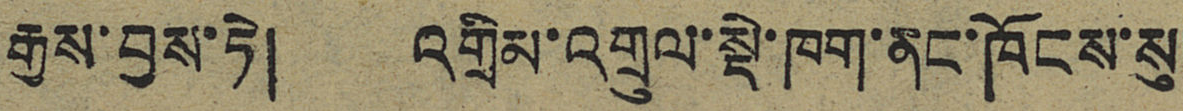རྒྱས་བྱས་ཏེ། འགྲིམ་འགྲུལ་སྡེ་ཁག་ནང་ཁོངས་སུ།
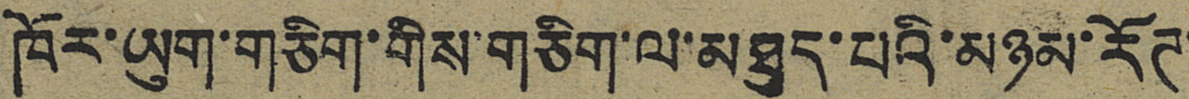ཁོར་ཡུག་གཅིག་གིས་གཅིག་ལ་མཐུད་པའི་མཉམ་རོཊ་
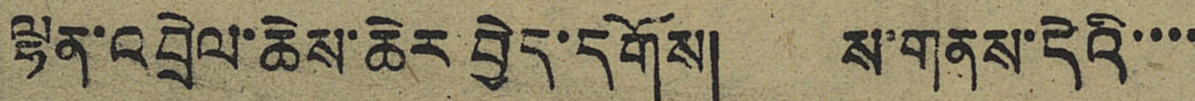ལྷན་འབྲེལ་ཆེས་ཆེར་བྱེད་དགོས། ས་གནས་དེའི་་་་
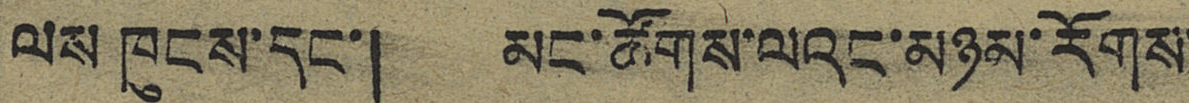ལས་ཁུངས་དང་། མང་ཚོགས་ལའང་མཉམ་རོགས་
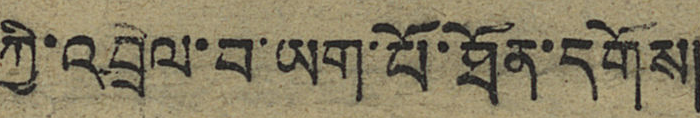ཀྱི་འབྲེལ་བ་ཡག་པོ་ཐོན་དགོས།
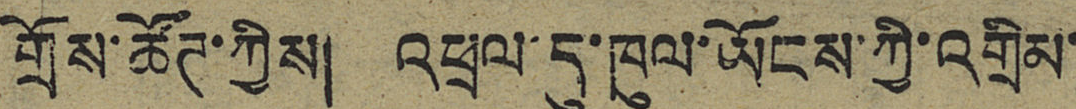གྲོས་ཚོཊ་ཀྱིས། འཕྲལ་དུ་ཁུལ་ཡོངས་ཀྱི་འགྲིམ་
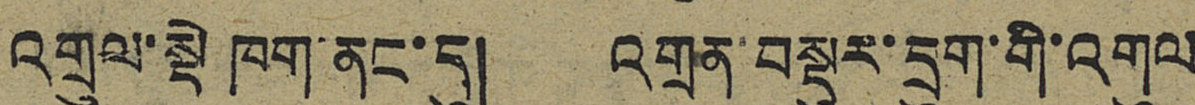འགྲུལ་སྡེ་ཁག་ནང་དུ། འགྲན་བསྡུར་དྲུག་གི་འགུལ
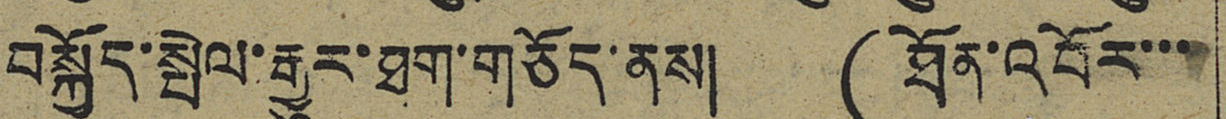བསྐྱོད་སྤེལ་རྒྱུར་ཐག་གཅོད་ནས། (ཐོན་འབོར་་་
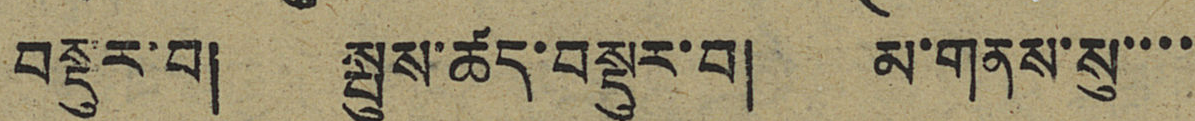བསྡུར་བ། སྤུས་ཚད་བསྡུར་བ། མ་གནས་སུ་་་་
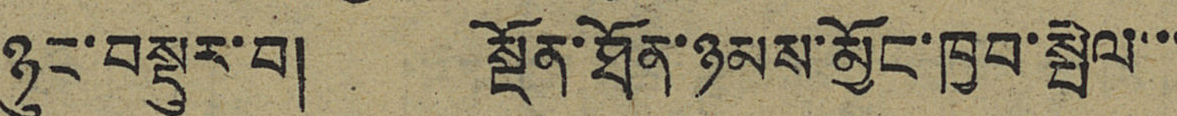ཉུང་བསྡུར་བ། སྔོན་ཐོན་ཉམས་མྱོང་ཁྱབ་སྤེལ་་་
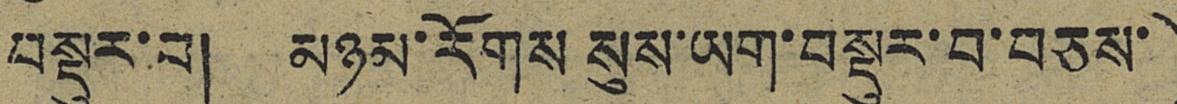བསྡུར་བ། མཉམ་རོགས སུས་ཡག་བསྡུར་བ་བཅས་)
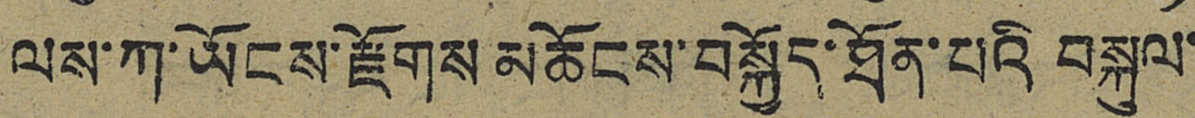ལས་ཀ་ཡོངས་རྫོགས མཆོངས་བསྐྱོད་ཐོན་པའི བསྐུལ་
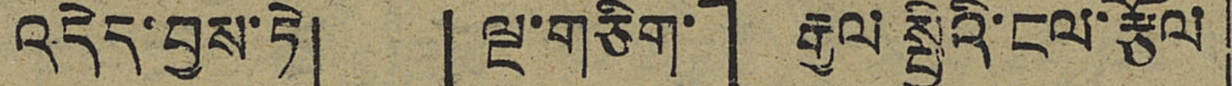འདེད་བྱས་ཏེ། 「ལྔ་གཅིག་」རྒྱལ་སྤྱིའི་ངལ་རྩོལ
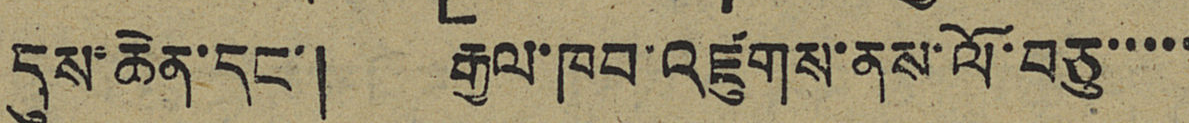དུས་ཆེན་དང་། རྒྱལ་ཁབ་འཛུགས་ནས་ལོ་བཅུ་་་་་
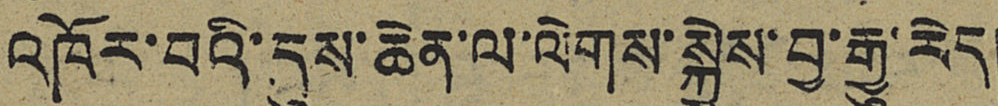འཁོར་བའི་དུས་ཆེན་ལ་ལེགས་སྐྱེས་བྱ་རྒྱུ་རེད།
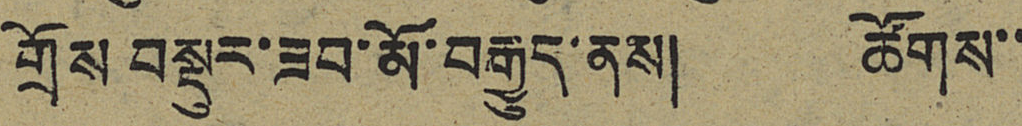གྲོས་བསྡུར་ཟབ་མོ་བརྒྱུད་ནས། ཚོགས་་
